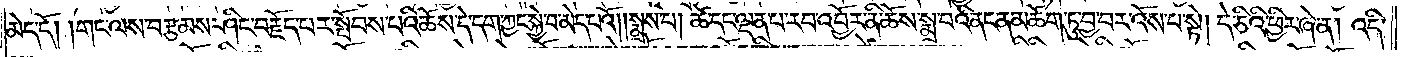མེད་དོ། །གང་ལས་བརྩམས་ཤིང་བརྗོད་པར་སྤོབས་པའི་ཆོས་དེ་དག་ཀྱང་སྐྱེ་བ་མེད་པའོ། །སྨྲས་པ། ཚེ་དང་ལྡན་པ་རབ་འབྱོར་ནི་ཆོས་སྨྲ་བའི་ནང་ན་མཆོག་ཏུ་བྱ་བར་འོས་པ་སྟེ། དེ་ཅིའི་ཕྱིར་ཞེ་ན། འདི་
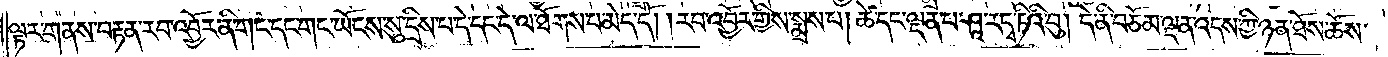ལྟར་གནས་བརྟན་རབ་འབྱོར་ནི་གང་དང་གང་ཡོངས་སུ་དྲིས་པ་དེ་དང་དེ་ལ་ཐོགས་པ་མེད་དོ། །རབ་འབྱོར་གྱིས་སྨྲས་པ། ཚེ་དང་ལྡན་པ་ཤཱ་ར་དྭ་ཏིའི་བུ། དེ་ནི་བཅོམ་ལྡན་འདས་ཀྱི་ཉན་ཐོས་ཆོས་
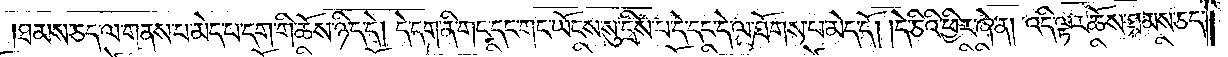ཐམས་ཅད་ལ་གནས་པ་མེད་པ་དག་གི་ཆོས་ཉིད་དེ། དེ་དག་ནི་གང་དང་གང་ཡོངས་སུ་དྲིས་པ་དེ་དང་དེ་ལ་ཐོགས་པ་མེད་དོ། །དེ་ཅིའི་ཕྱིར་ཞེ་ན། འདི་ལྟར་ཆོས་ཐམས་ཅད་
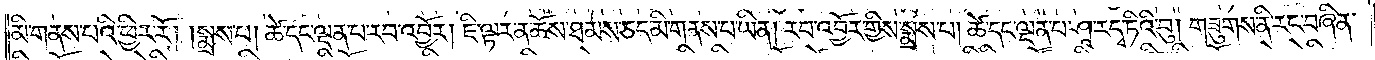མི་གནས་པའི་ཕྱིར་རོ། །སྨྲས་པ། ཚེ་དང་ལྡན་པ་རབ་འབྱོར། ཇི་ལྟར་ན་ཆོས་ཐམས་ཅད་མི་གནས་པ་ཡིན། རབ་འབྱོར་གྱིས་སྨྲས་པ། ཚེ་དང་ལྡན་པ་ཤཱ་ར་དྭ་ཏིའི་བུ། གཟུགས་ནི་རང་བཞིན་
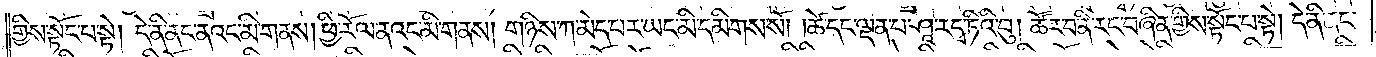གྱིས་སྟོང་པ་སྟེ། དེ་ནི་ནང་ནའང་མི་གནས། ཕྱི་རོལ་ནའང་མི་གནས། གཉིས་ཀ་མེད་པར་ཡང་མི་དམིགས་སོ། །ཚེ་དང་ལྡན་པ་ཤཱ་ར་དྭ་ཏིའི་བུ། ཚོར་བ་ནི་རང་བཞིན་གྱིས་སྟོང་པ་སྟེ། དེ་ནི་ནང་
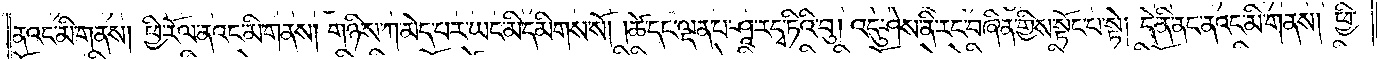ནའང་མི་གནས། ཕྱི་རོལ་ནའང་མི་གནས། གཉིས་ཀ་མེད་པར་ཡང་མི་དམིགས་སོ། །ཚེ་དང་ལྡན་པ་ཤཱ་ར་དྭ་ཏིའི་བུ། འདུ་ཤེས་ནི་རང་བཞིན་གྱིས་སྟོང་པ་སྟེ། དེ་ནི་ནང་ནའང་མི་གནས། ཕྱི་
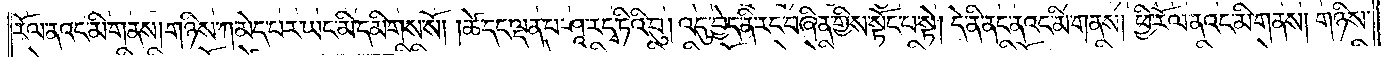རོལ་ནའང་མི་གནས། གཉིས་ཀ་མེད་པར་ཡང་མི་དམིགས་སོ། །ཚེ་དང་ལྡན་པ་ཤཱ་ར་དྭ་ཏིའི་བུ། འདུ་བྱེད་ནི་རང་བཞིན་གྱིས་སྟོང་པ་སྟེ། དེ་ནི་ནང་ནའང་མི་གནས། ཕྱི་རོལ་ནའང་མི་གནས། གཉིས་
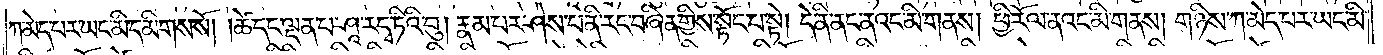ཀ་མེད་པར་ཡང་མི་དམིགས་སོ། །ཚེ་དང་ལྡན་པ་ཤཱ་ར་དྭ་ཏིའི་བུ། རྣམ་པར་ཤེས་པ་ནི་རང་བཞིན་གྱིས་སྟོང་པ་སྟེ། དེ་ནི་ནང་ནའང་མི་གནས། ཕྱི་རོལ་ནའང་མི་གནས། གཉིས་ཀ་མེད་པར་ཡང་མི་
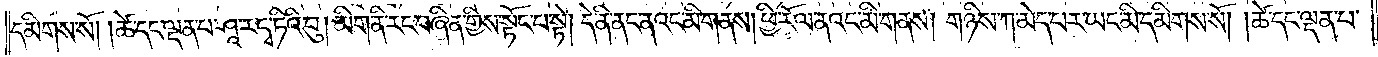དམིགས་སོ། །ཚེ་དང་ལྡན་པ་ཤཱ་ར་དྭ་ཏིའི་བུ། མིག་ནི་རང་བཞིན་གྱིས་སྟོང་པ་སྟེ། དེ་ནི་ནང་ནའང་མི་གནས། ཕྱི་རོལ་ནའང་མི་གནས། གཉིས་ཀ་མེད་པར་ཡང་མི་དམིགས་སོ། །ཚེ་དང་ལྡན་པ་
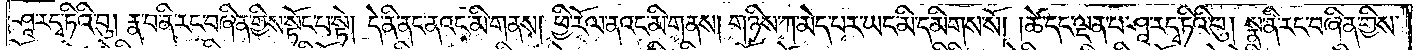ཤཱ་ར་དྭ་ཏིའི་བུ། རྣ་བ་ནི་རང་བཞིན་གྱིས་སྟོང་པ་སྟེ། དེ་ནི་ནང་ནའང་མི་གནས། ཕྱི་རོལ་ནའང་མི་གནས། གཉིས་ཀ་མེད་པར་ཡང་མི་དམིགས་སོ། །ཚེ་དང་ལྡན་པ་ཤཱ་ར་དྭ་ཏིའི་བུ། སྣ་ནི་རང་བཞིན་གྱིས་
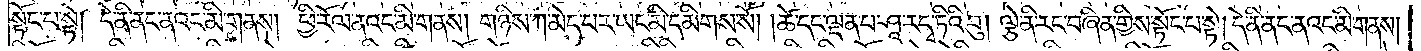སྟོང་པ་སྟེ། དེ་ནི་ནང་ནའང་མི་གནས། ཕྱི་རོལ་ནའང་མི་གནས། གཉིས་ཀ་མེད་པར་ཡང་མི་དམིགས་སོ། །ཚེ་དང་ལྡན་པ་ཤཱ་ར་དྭ་ཏིའི་བུ། ལྕེ་ནི་རང་བཞིན་གྱིས་སྟོང་པ་སྟེ། དེ་ནི་ནང་ནའང་མི་གནས།
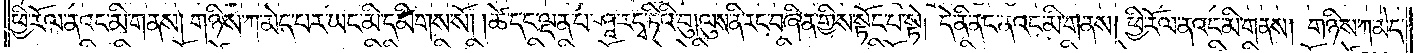ཕྱི་རོལ་ནའང་མི་གནས། གཉིས་ཀ་མེད་པར་ཡང་མི་དམིགས་སོ། །ཚེ་དང་ལྡན་པ་ཤཱ་ར་དྭ་ཏིའི་བུ། ལུས་ནི་རང་བཞིན་གྱིས་སྟོང་པ་སྟེ། དེ་ནི་ནང་ནའང་མི་གནས། ཕྱི་རོལ་ནའང་མི་གནས། གཉིས་ཀ་མེད་
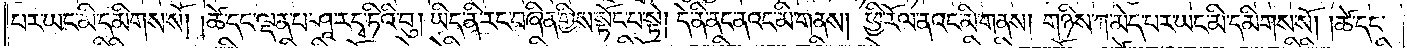པར་ཡང་མི་དམིགས་སོ། །ཚེ་དང་ལྡན་པ་ཤཱ་ར་དྭ་ཏིའི་བུ། ཡིད་ནི་རང་བཞིན་གྱིས་སྟོང་པ་སྟེ། དེ་ནི་ནང་ནའང་མི་གནས། ཕྱི་རོལ་ནའང་མི་གནས། གཉིས་ཀ་མེད་པར་ཡང་མི་དམིགས་སོ། །ཚེ་དང་
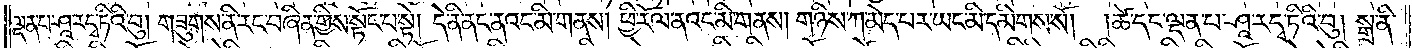ལྡན་པ་ཤཱ་ར་དྭ་ཏིའི་བུ། གཟུགས་ནི་རང་བཞིན་གྱིས་སྟོང་པ་སྟེ། དེ་ནི་ནང་ནའང་མི་གནས། ཕྱི་རོལ་ནའང་མི་གནས། གཉིས་ཀ་མེད་པར་ཡང་མི་དམིགས་སོ། །ཚེ་དང་ལྡན་པ་ཤཱ་ར་དྭ་ཏིའི་བུ། སྒྲ་ནི་
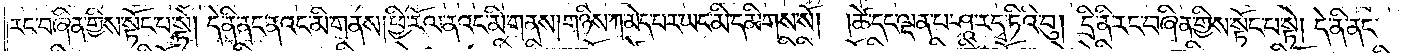རང་བཞིན་གྱིས་སྟོང་པ་སྟེ། དེ་ནི་ནང་ནའང་མི་གནས། ཕྱི་རོལ་ནའང་མི་གནས། གཉིས་ཀ་མེད་པར་ཡང་མི་དམིགས་སོ། །ཚེ་དང་ལྡན་པ་ཤཱ་ར་དྭ་ཏིའི་བུ། དྲི་ནི་རང་བཞིན་གྱིས་སྟོང་པ་སྟེ། དེ་ནི་ནང་
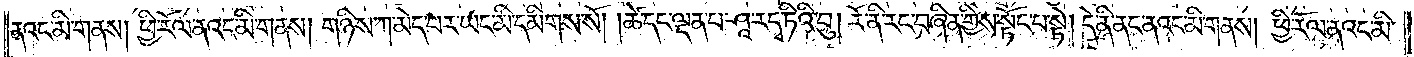ནའང་མི་གནས། ཕྱི་རོལ་ནའང་མི་གནས། གཉིས་ཀ་མེད་པར་ཡང་མི་དམིགས་སོ། །ཚེ་དང་ལྡན་པ་ཤཱ་ར་དྭ་ཏིའི་བུ། རོ་ནི་རང་བཞིན་གྱིས་སྟོང་པ་སྟེ། དེ་ནི་ནང་ནའང་མི་གནས། ཕྱི་རོལ་ནའང་མི་
